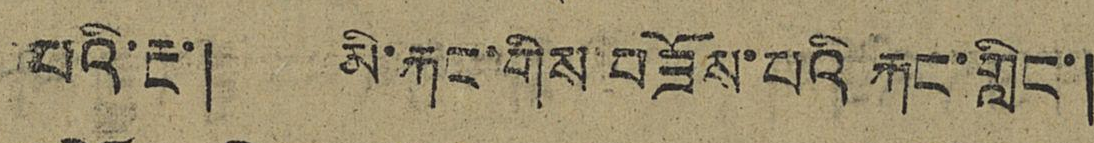པའི་རྔ་། མི་རྐང་གིས་བཟོས་པའི རྐང་གླིང་།
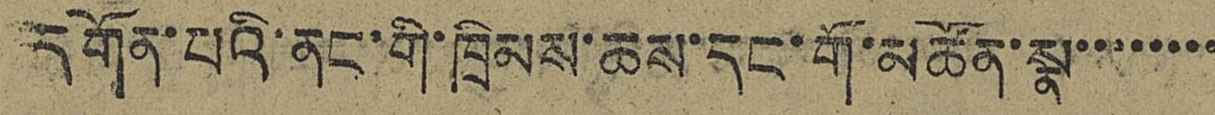དགོན་པའི་ནང་གི་ཁྲིམས་ཆས་དང་གོ་མཚོན་སྣ་་་་་་་
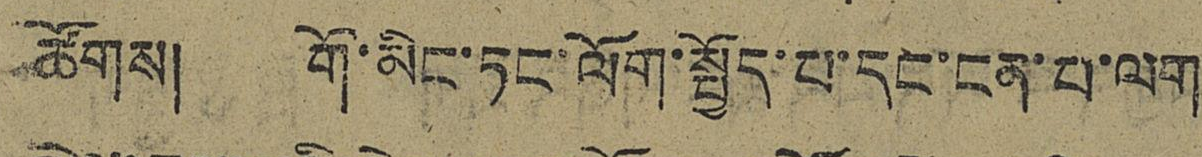ཚོགས། གོ་མིང་ཏང་ལོག་སྤྱོད་པ་དང་ངན་པ་ལག་
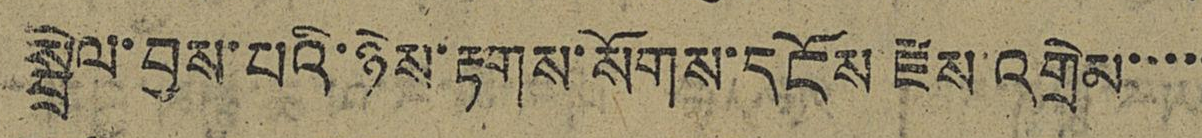སྦྲེལ་བྱས་པའི་ཉེས་རྟགས་སོགས་དངོས རྫས་འགྲེམ་་་་
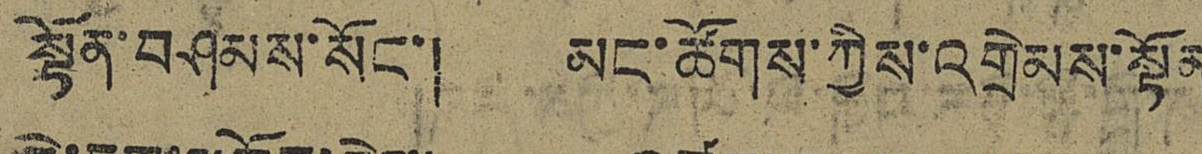སྟོན་བཤམས་སོང་། མང་ཚོགས་ཀྱིས་འགྲེམས་སྟོན
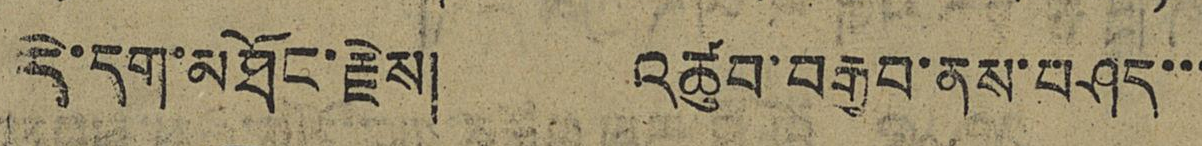དེ་དག་མཐོང་རྗེས། འཚབ་བརྒྱབ་ནས་བཤད་་་
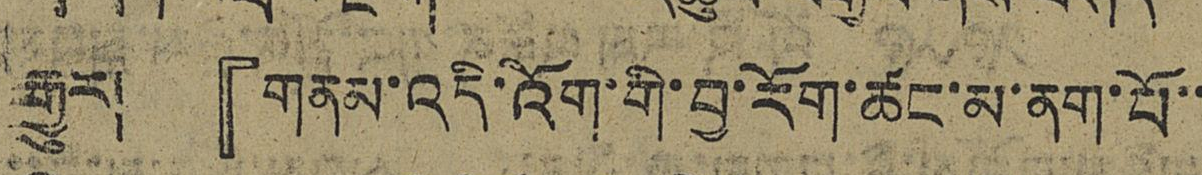རྒྱུར། 『གནམ་འདི་འོག་གི་བྱ་རོག་ཚང་མ་ནག་པོ་
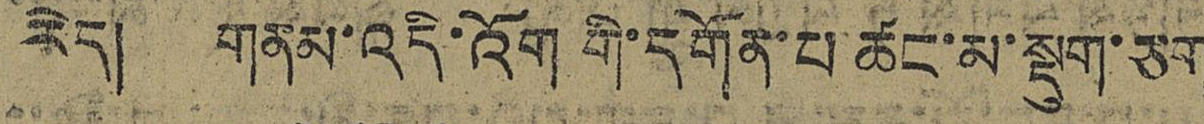རེད། གནམ་འདི་འོག གི་དགོན་པ་ཚང་མ་སྡུག་ཅག
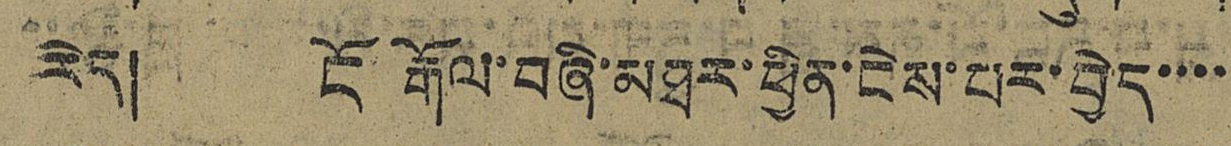རེད། ངོ རྒོལ་བཞི་མཐར་ཕྱིན་ངེས་པར་བྱེད་་་་
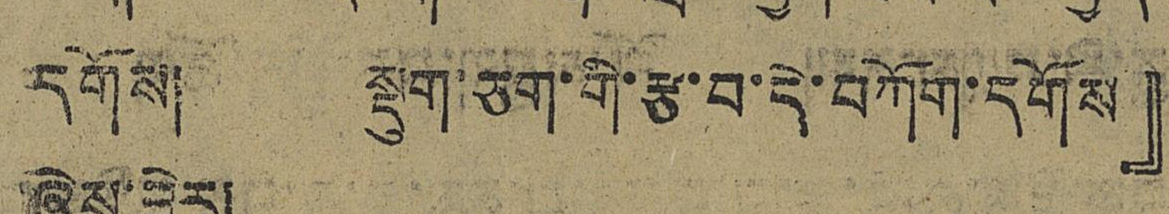དགོས། སྡུག་ཅག་གི་རྩ་བ་དེ་བཀོག་དགོས』
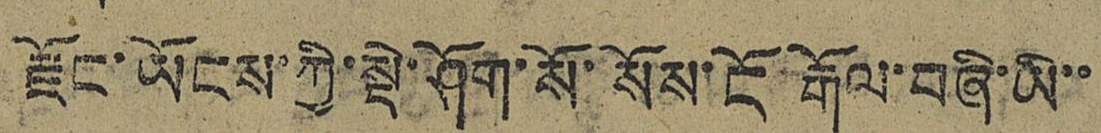རྫོང་ཡོངས་ཀྱི་སྡེ་ཤོག་སོ་སོས་ངོ་རྒོལ་བཞི་ཡི་་
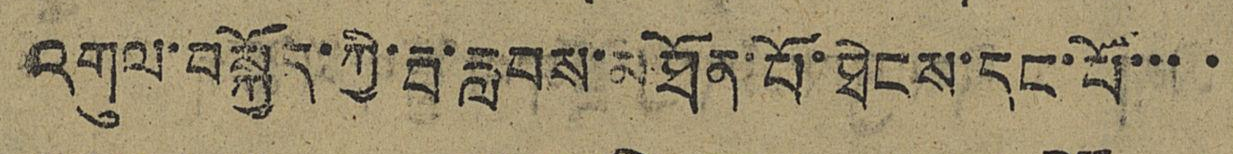འགུལ་བསྐྱོད་ཀྱི་རྦ་རླབས་མཐོན་པོ་ཐེངས་དང་པོ་་་་
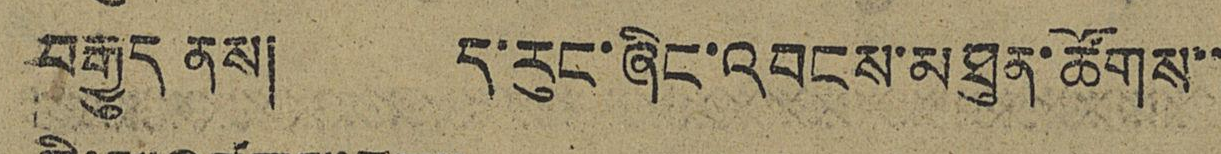བརྒྱུད ནས། ད་རུང་ཞིང་འབངས་མཐུན་ཚོགས་་
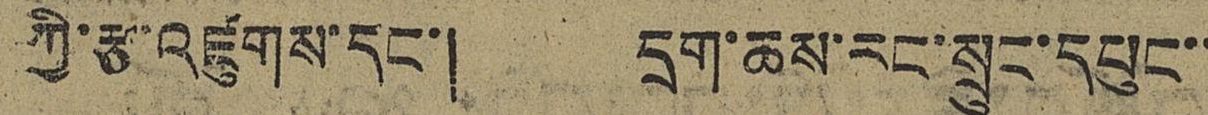ཀྱི་རྩ་འཛུགས་དང་། དྲག་ཆས་རང་སྲུང་དཔུང་་
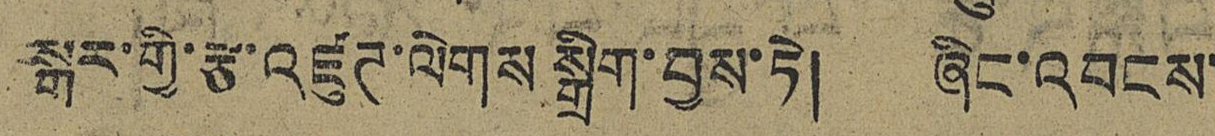སྒར་གྱི་རྩ་འཛུཊ་ལེགས་སྒྲིག་བྱས་ཏེ། ཞིང་འབངས་
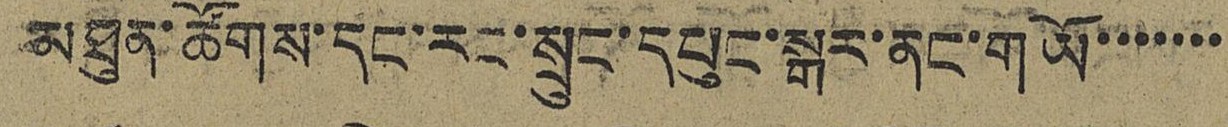མཐུན་ཚོགས་དང་རང་སྲུང་དཔུང་སྒར་ནང་གཡོ་་་་་་་
